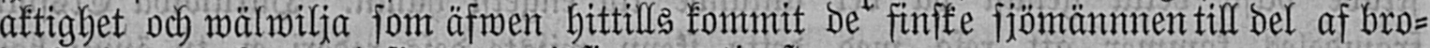aktighet och wälwilja som äfwen hittills kommit de finske sjömännnen till del af bro-
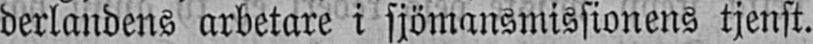derlandens arbetare i sjömansmissionens tjenst.
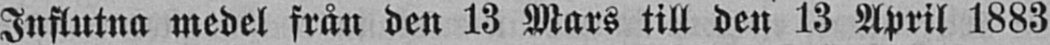Influtna medel från den 13 Mars till den 13 April 1883
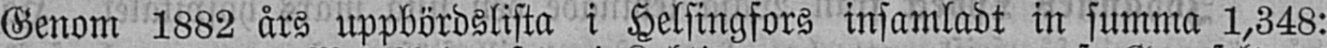Genom 1882 års uppbördslista i Helsingfors insamladt in summa 1,348:
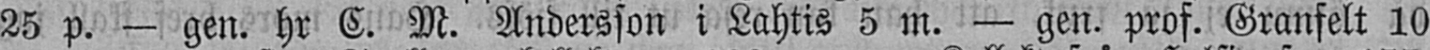25 p. — gen. hr C. M. Andersson i Lahtis 5 m. — gen. prof. Granfelt 10
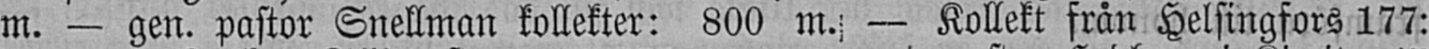m. — gen. pastor Snellman kollekter: 800 m. — Kollekt från Helsingfors 177:
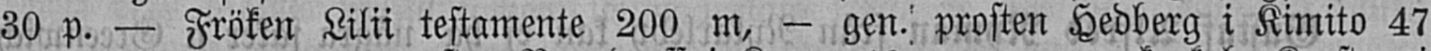30 p. — Fröken Lilii testamente 200 m, - gen. prosten Hedberg i Kimito 47
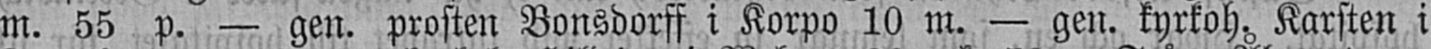m. 55 p. — gen. prosten Bonsdorff i Korpo 10 m. — gen. kyrkoh. Karsten i
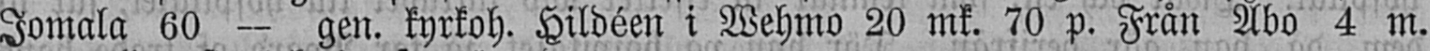Jomala 60 — gen. kyrkoh. Hildéen i Wehmo 20 mk. 70 p. Från Åbo 4 m.
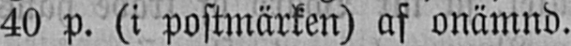40 p. (i postmärken) af onämnd.
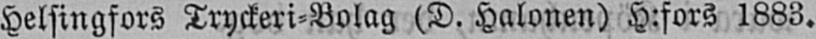Helsingfors Tryckeri-Bolag (D. Halonen) H:fors 1883.
